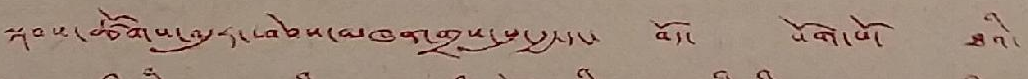སྐབས་ཚོགས་འདུར་ཕེབས་མཁན་གྲས་སུ་རྒྱ་དང་ བོད་ སོག་པོ་ ཐའི་
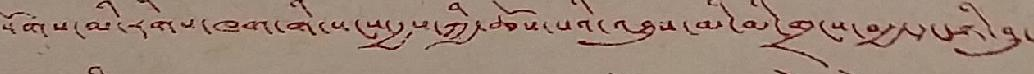སོགས་མི་རིགས་ཁག་གི་སངས་རྒྱས་ཀྱི་ཆོས་པའི་འཐུས་མི་མི་གྲངས་བརྒྱ་དང་ཉི་ཤུ་
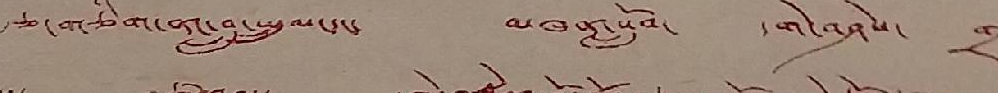རྩ་གཅིག་ནང་བླུ་སྤྲུལ་དང་ མཁན་སློབ་ དགེ་བཤེས་ གྲྭ་
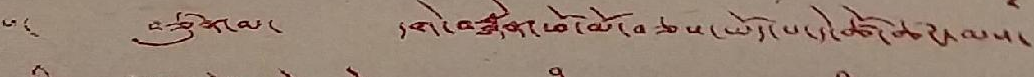པ་ བཙུན་མ་ དགེ་བརྙེན་ཕོ་མོ་བཅས་ཡོད་པ་དེ་ཚོ་ཚང་མས་
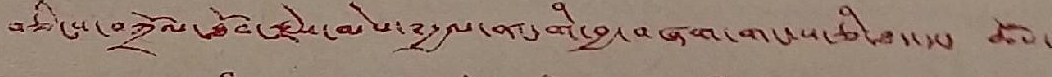བཅིངས་བཀྲོལ་ཐོབ་རྗེས་མེས་༸རྒྱལ་ནང་གི་བྱ་བ་བཞག་གང་ས་ཅི་ཐད་དང་ ཆོས་
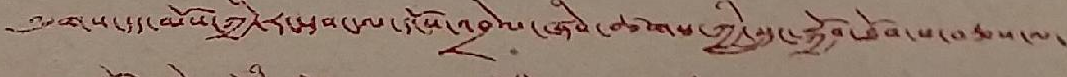ལུགས་དད་མོས་ཀྱི་རང་དབང་ལ་དངོས་འབྲེལ་ཞིབ་ཚགས་ཀྱི་སྲུང་སྐྱོབ་ཐོབ་པ་བཅས་ལ་
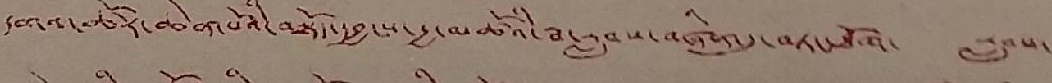དགའ་ཚོར་ཆེན་པོའི་བསྟོད་དབྱངས་རྒྱ་མཚོའི་རྦ་རླབས་བཞིན་དུ་བཏང་ཐོག་ རླབས་
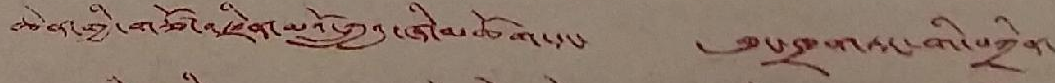ཆེན་གྱི་གཙོ་འཛིན་མའོ་ཀྲུའུ་ཞི་མཆོག་དང་ གུང་ཁྲན་ཏང་གི་བཀྲིན་
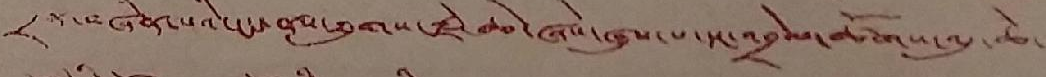དྲན་བཞིན་པའི་ངང་ནས་ཐུགས་རྗེ་ཆེ་ཞེས་ཞུས་པ་དང་འབྲེལ་ཚོགས་འདུ་ཆེ་
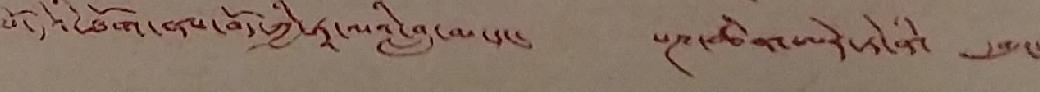པོ་དེའི་ཐོག་ནས་བོད་ཀྱི་ཏཱ་ལའི་བླ་མ་དང་ པཎ་ཆེན་ཨེར་ཏེ་ནི་ དགུང་
